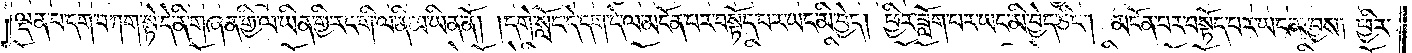ལྡན་པ་དག་བཀག་སྟེ་དེ་ནི་གཞན་གྱི་ལ་ཡིན་གྱི་རང་གི་ལ་ནི་མ་ཡིན་ནོ། །དགེ་སློང་དེ་དག་དེ་ལ་མངོན་པར་བསྟོད་པར་ཡང་མི་བྱེད། ཕྱིར་ཟློག་པར་ཡང་མི་བྱེད་ཅིང༌། མངོན་པར་བསྟོད་པར་ཡང་མ་བྱས། ཕྱིར་
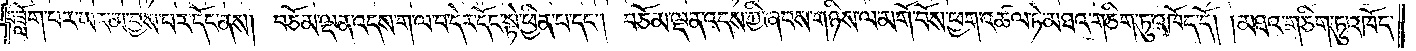བཟློག་པར་ཡང་མ་བྱས་པར་དོང་ནས། བཅོམ་ལྡན་འདས་ག་ལ་བ་དེར་དོང་སྟེ་ཕྱིན་པ་དང༌། བཅོམ་ལྡན་འདས་ཀྱི་ཞབས་གཉིས་ལ་མགོ་བོས་ཕྱག་འཚལ་ཏེ་མཐའ་གཅིག་ཏུ་འཁོད་དོ། །མཐའ་གཅིག་ཏུ་འཁོད་
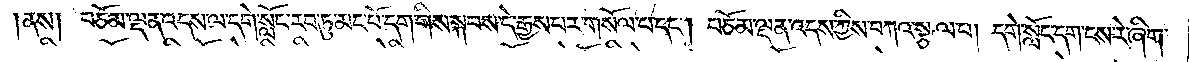ནས། བཅོམ་ལྡན་འདས་ལ་དགེ་སློང་རབ་ཏུ་མང་པོ་དག་གིས་སྐབས་དེ་རྒྱས་པར་གསོལ་པ་དང༌། བཅོམ་ལྡན་འདས་ཀྱིས་བཀའ་སྩལ་པ། དགེ་སློང་དག་ངས་རེ་ཞིག་
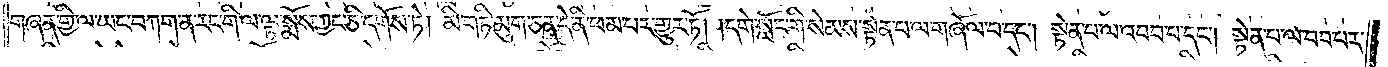གཞན་གྱི་ལ་ཡང་བཀག་ན་རང་གི་ལ་ལྟ་སྨོས་ཀྱང་ཅི་དགོས་ཏེ། མི་གཏི་མུག་ཅན་དེ་ནི་ཕམ་པར་གྱུར་ཏོ། །དགེ་སློང་གི་སེམས་སྟེན་པ་ལ་གཞོལ་བ་དང༌། སྟེན་པ་ལ་འབབ་པ་དང༌། སྟེན་པ་ལ་བབ་པར་
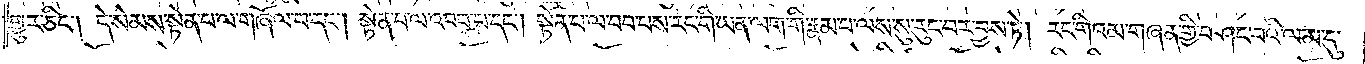གྱུར་ཅིང༌། དེ་སེམས་སྟེན་པ་ལ་གཞོལ་བ་དང༌། སྟེན་པ་ལ་འབབ་པ་དང༌། སྟེན་པ་ལ་བབ་པས་རང་གི་ཡན་ལག་གི་རྣམ་པ་ལས་སུ་རུང་བར་བྱས་ཏེ། རང་གིའམ་གཞན་གྱི་བཤང་བའི་ལམ་དུ་
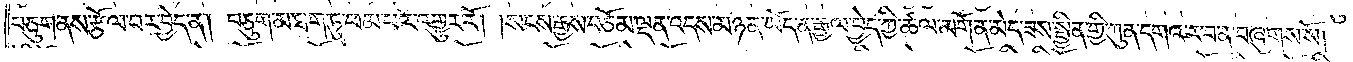བཅུག་ནས་རྩོལ་བར་བྱེད་ན། བཅུག་མ་ཐག་ཏུ་ཕམ་པར་འགྱུར་རོ། །སངས་རྒྱས་བཅོམ་ལྡན་འདས་མཉན་ཡོད་ན་རྒྱལ་བྱེད་ཀྱི་ཚལ་མགོན་མེད་ཟས་སྦྱིན་གྱི་ཀུན་དགའ་ར་བ་ན་བཞུགས་སོ།
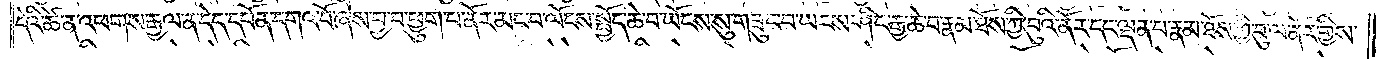དེའི་ཚེ་ན་འཕགས་རྒྱལ་ན་དེད་དཔོན་དགའ་བོ་ཞེས་བྱ་བ་ཕྱུག་པ་ནོར་མང་བ་ལོངས་སྤྱོད་ཆེ་བ་ཡོངས་སུ་གཟུང་བ་ཡངས་ཤིང་རྒྱ་ཆེ་བ་རྣམས་ཐོས་ཀྱི་བུའི་ནོར་དང་ལྡན་པ་རྣམ་ཐོས་ཀྱི་བུ་ལ་ནོར་གྱིས་
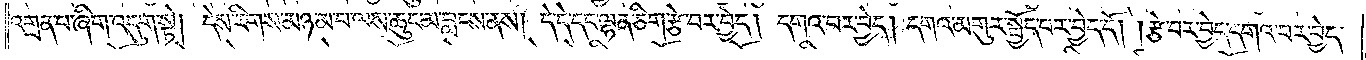འགྲན་པ་ཞིག་འདུག་སྟེ། དེས་རིགས་མཉམ་པ་ལས་ཆུང་མ་བླངས་ནས། དེ་དེ་དང་ལྷན་ཅིག་རྩེ་བར་བྱེད། དགའ་བར་བྱེད། དགའ་མགུར་སྤྱོད་པར་བྱེད་དོ། །རྩེ་བར་བྱེད་དགའ་བར་བྱེད་
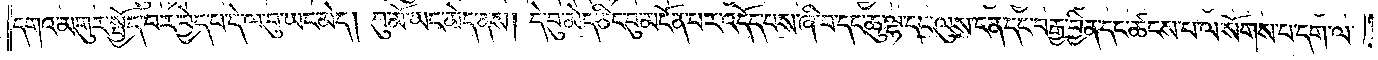དགའ་མགུར་སྤྱོད་པར་བྱེད་པ་དེ་ལ་བུ་ཡང་མེད། བུ་མོ་ཡང་མེད་ནས། དེ་བུ་མེད་ཅིང་བུ་མངོན་པར་འདོད་པས་ཞི་བ་དང་ཆུ་ལྷ་དང་ལུས་ངན་དང་བརྒྱ་བྱིན་དང་ཚངས་པ་ལ་སོགས་པ་དག་ལ་
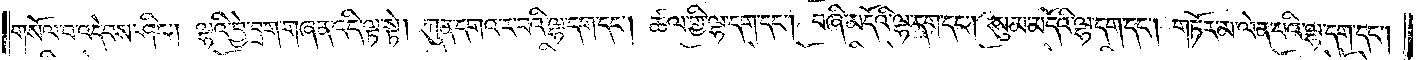གསོལ་བ་འདེབས་ཤིང༌། ལྷའི་བྱེ་བྲག་གཞན་འདི་ལྟ་སྟེ། ཀུན་དགའ་ར་བའི་ལྷ་དག་དང༌། ཚལ་གྱི་ལྷ་དག་དང༌། བཞི་མདོའི་ལྷ་གད་དང༌། སུམ་མདོའི་ལྷ་དག་དང༌། གཏོར་མ་ལེན་པའི་ལྷ་དག་དང༌།
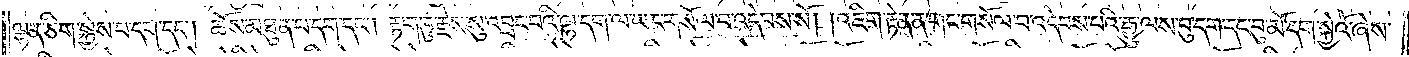ལྷན་ཅིག་སྐྱེས་པ་དག་དང༌། ཆོས་མཐུན་པ་དག་དང༌། རྟག་ཏུ་རྗེས་སུ་འབྲང་བའི་ལྷ་དག་ལ་ཡང་གསོལ་བ་འདེབས་སོ། །འཇིག་རྟེན་ན་གང་གསོལ་བ་འདེབས་པའི་རྒྱུ་ལས་བུ་དག་དང་བུ་མོ་དག་སྐྱེའོ་ཞེས་
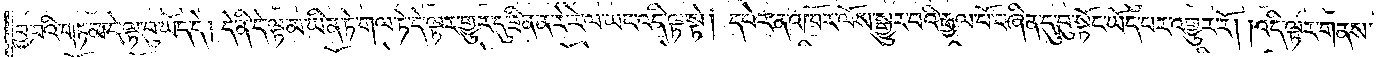བྱ་བའི་གཏམ་དེ་ལྟ་བུ་ཡོད་དེ། དེ་ནི་དེ་ལྟ་མ་ཡིན་ཏེ་གལ་ཏེ་དེ་ལྟར་གྱུར་དུ་ཟིན་ན་རེ་རེ་ལ་ཡང་འདི་ལྟ་སྟེ། དཔེར་ན་འཁོར་ལོས་སྒྱུར་བའི་རྒྱལ་པོ་བཞིན་དུ་བུ་སྟོང་ཡོད་པར་འགྱུར་རོ། །འདི་ལྟར་གནས་
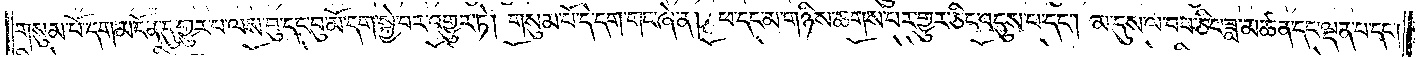གསུམ་པོ་དག་མངོན་དུ་གྱུར་པ་ལས་བུ་དང་བུ་མོ་དག་སྐྱེ་བར་འགྱུར་ཏེ། གསུམ་པོ་དེ་དག་གང་ཞེ་ན། ཕ་དང་མ་གཉིས་ཆགས་པར་གྱུར་ཅིང་འདུས་པ་དང༌། མ་དུས་ལ་བབ་ཅིང་ཟླ་མཚན་དང་ལྡན་པ་དང༌།
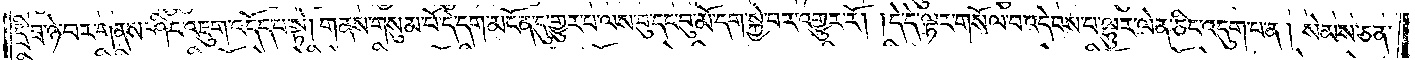དྲི་ཟ་ཉེ་བར་གནས་ཤིང་འཇུག་འདོད་པ་སྟེ། གནས་གསུམ་པོ་དེ་དག་མངོན་དུ་གྱུར་པ་ལས་བུ་དང་བུ་མོ་དག་སྐྱེ་བར་འགྱུར་རོ། །དེ་དེ་ལྟར་གསོལ་བ་འདེབས་པ་ལྷུར་ལེན་ཅིང་འདུག་པ་ན། སེམས་ཅན་
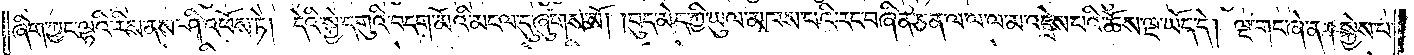ཞིག་ཀྱང་ལྷའི་རིས་ནས་ཤི་འཕོས་ཏེ། དེའི་སྐྱེ་དགུའི་བདག་མོའི་མངལ་དུ་ཞུགས་སོ། །བུད་མེད་ཀྱི་ཡུལ་མཁས་པའི་རང་བཞིན་ཅན་ལ་ལ་ལ་མ་འདྲེས་པའི་ཆོས་ལྔ་ཡོད་དེ། ལྔ་གང་ཞེ་ན། སྐྱེས་པ་
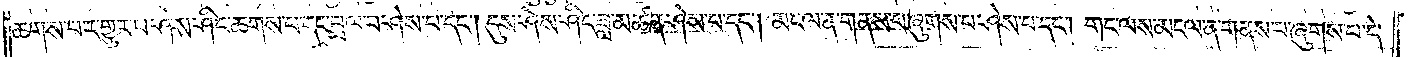ཆགས་པར་གྱུར་པ་ཤེས་ཤིང་ཆགས་པ་དང་བྲལ་བ་ཤེས་པ་དང༌། དུས་ཤེས་ཤིང་ཟླ་མཚན་ཤེས་པ་དང༌། མངལ་ན་གནས་པ་ཞུགས་པ་ཤེས་པ་དང༌། གང་ལས་མངལ་ན་གནས་པ་ཞུགས་པ་དེ་
